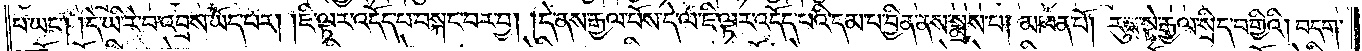པ་ཡང༌། །དེ་ཡི་རེ་བ་འབྲས་ཡོད་པར། །ཇི་ལྟར་འདོད་པ་བསྐང་བར་བྱ། །དེ་ནས་རྒྱལ་པོས་དེ་ལ་ཇི་ལྟར་འདོད་པའི་དམ་པ་བྱིན་ནས་སྨྲས་པ། མཁན་པོ། རུབ་སྟེ་རྒྱལ་སྲིད་བགྱིའི། བདག་
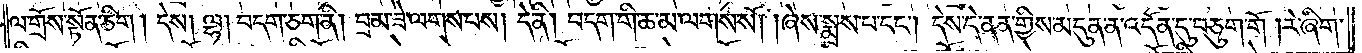ལ་གྲོས་སྟོན་ཅིག །དེས། ལྷ། བདག་ཅག་ནི། བྲམ་ཟེ་ལགས་པས། དེ་ནི། བདག་གི་ཆ་མ་ལགས་སོ། །ཞེས་སྨྲས་པ་དང༌། དེས་དེ་ནན་གྱིས་མདུན་ན་འདོན་དུ་བཅུག་གོ །རེ་ཞིག་
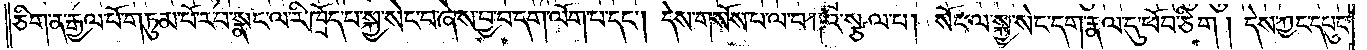ཅིག་ན་རྒྱལ་པོ་གཏུམ་པོ་རབ་སྣང་ལ་རི་ཁྲོད་པ་སྐྱ་སེང་བ་ཞེས་བྱ་བ་དག་ལོག་པ་དང༌། དེས་གསོལ་པ་ལ་བཀའ་སྩལ་པ། སོང་ལ་སྐྱ་སེང་དག་རྣལ་དུ་ཕོབ་ཅིག །དེས་ཀྱང་དཔུང་
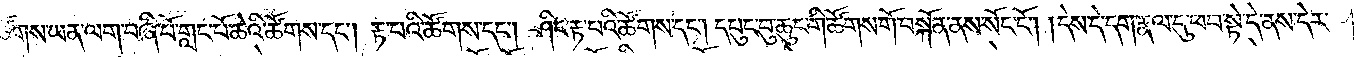གི་ཚོགས་ཡན་ལག་བཞི་པོ་གླང་པོ་ཆེའི་ཚོགས་དང༌། རྟ་པའི་ཚོགས་དང༌། ཤིང་རྟ་པའི་ཚོགས་དང༌། དཔུང་བུ་ཆུང་གི་ཚོགས་གོ་བསྐོན་ནས་སོང་ངོ༌། །དེས་དེ་དག་རྣལ་དུ་ཕམ་སྟེ་དེ་ནས་དེར་
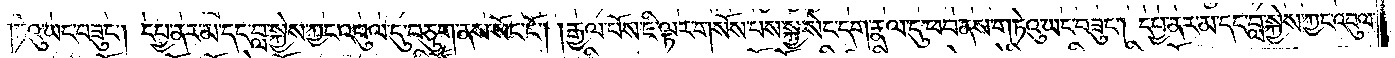གཏེའུ་ཡང་བཟུང༌། དཔྱ་ནར་མ་དང་བླ་སྐྱེས་ཀྱང་འབུལ་དུ་བཅུག་ནས་སོང་ངོ༌། །རྒྱལ་པོས་ཇི་ལྟར་གསོས་པས་སྐྱ་སེང་དག་རྣལ་དུ་ཕབ་ནས་གཏེའུ་ཡང་བཟུང༌། དཔྱ་ནར་མ་དད་བླ་སྐྱེས་ཀྱང་འབུལ་
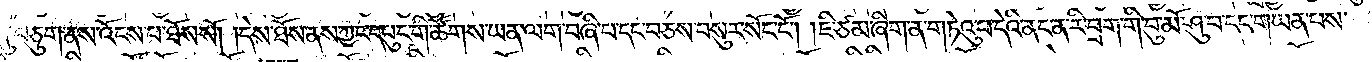དུ་བཅུག་ནས་འོངས་པ་ཐོས་སོ། །དེས་ཐོས་ནས་ཀྱང་དཔུང་གི་ཚོགས་ཡན་ལག་བཞི་པ་དང་བཅས་བསུར་སོང་ངོ༌། །ཇི་ཙམ་ཞིག་ན་གཏེའུ་པ་དེའི་ནང་ན་རི་བྲག་གི་བུ་མོ་ཤུ་བ་དང་གཡན་པས་
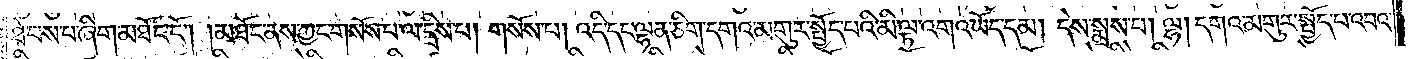ཐེབས་པ་ཞིག་མཐོང་ངོ༌། །མཐོང་ནས་ཀྱང་གསོས་པ་ལ་དྲིས་པ། གསོས་པ། འདི་དང་ལྷན་ཅིག་དགའ་མགུར་སྤྱོད་པའི་མི་ལྟ་འགའ་ཡོད་དམ། དེས་སྨྲས་པ། ལྷ། དགའ་མགུར་སྤྱོད་པ་འབའ་
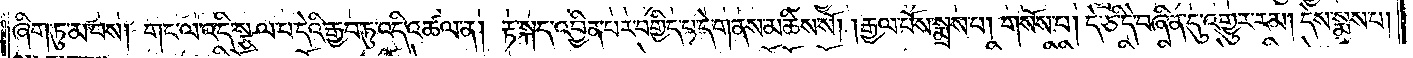ཞིག་ཏུ་མ་བས། གང་ལ་འདི་སྩལ་པ་དེའི་རྒྱབ་ཏུ་འདི་འཚལ་ན། རྟ་སྐད་འབྱིན་པར་བགྱིད་པ་དེ་གནས་མཆིས་སོ། །རྒྱལ་པོས་སྨྲས་པ། གསོས་པ། དེ་ཅི་དེ་བཞིན་དུ་འགྱུར་རམ། དེས་སྨྲས་པ།
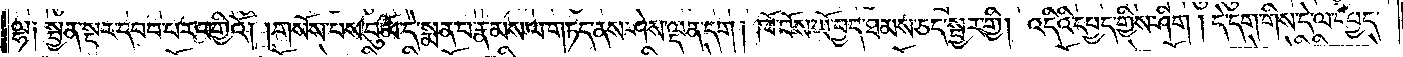ལྷ༑ སྤྱན་སྔར་དབབ་པར་བགྱིའོ། །གསོས་པས་བུ་མོ་དེ་སྨན་པ་རྣམས་ལ་གཏད་ནས་ཤེས་ལྡན་དག། ཁོ་བོས་ཡོ་བྱད་ཐམས་ཅད་སྦྱར་གྱི། འདིའི་དཔྱད་གྱིས་ཤིག །དེ་དག་གིས་དེ་ལ་དཔྱད་
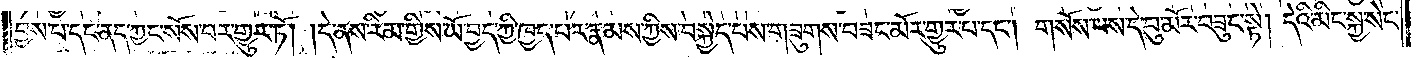བྱས་པ་དང་ནད་ཀྱང་སོས་པར་གྱུར་ཏོ། །དེ་ནས་རིམ་གྱིས་ཡོ་བྱད་ཀྱི་ཁྱད་པར་རྣམས་ཀྱིས་བསྐྱེད་པས་གཟུགས་བཟང་མོར་གྱུར་པ་དང༌། གསོས་པས་དེ་བུ་མོར་བཟུང་སྟེ། དེའི་མིང་སྐྱ་སེང་
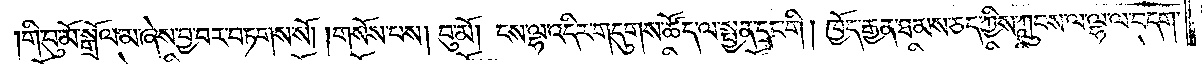གི་བུ་མོ་སྒྲོལ་མ་ཞེས་བྱ་བར་བཏགས་སོ། །གསོས་པས། བུ་མོ། དེས་ལྷ་འདིར་གདུགས་ཚོད་ལ་སྤྱན་དྲང་གི། ཁྱོད་རྒྱན་ཐམས་ཅད་ཀྱིས་ཀླུབས་ལ་ལྷ་ལ་བདག་
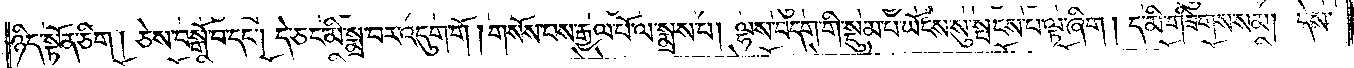ཉིད་སྟོན་ཅིག། ཅེས་བསྒོ་བ་དང༌། དེ་ཅང་མི་སྨྲ་བར་འདུག་གོ། གསོས་པས་རྒྱལ་པོ་ལ་སྨྲས་པ། ལྷས་པ་བདག་གི་སྡུམ་པ་ཡོངས་སུ་སྤངས་པ་ལྟ་ཞིག། ད་མི་གཟིགས་སམ། དེས་
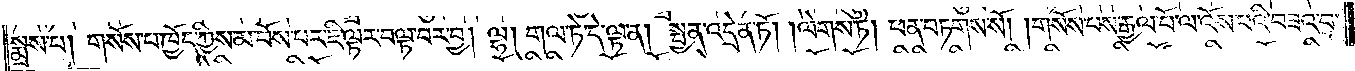སྨྲས་པ། གསོས་པ་ཁྱོད་ཀྱིས་མ་བོས་པར་ཇི་ལྟར་བལྟ་བར་བྱ། ལྷ། གལ་ཏེ་དེ་ལྟ་ན། སྤྱན་འདྲེན་ཏོ། །ལེགས་ཏེ། ཕན་བཏགས་སོ། །གསོས་པས་རྒྱལ་པོ་ལ་འོས་པའི་བཟའ་བ་
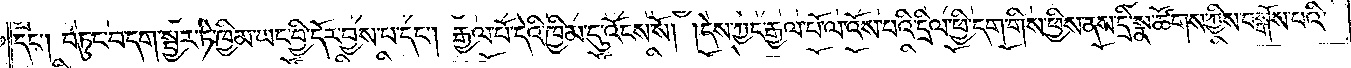དང༌། བཏུང་བ་དག་སྦྱར་ཏེ་ཁྱིམ་ཡང་བྱི་དོར་བྱས་པ་དང༌། རྒྱལ་པོ་དེའི་ཁྱིམ་དུ་འོངས་སོ། །དེས་ཀྱང་རྒྱལ་པོ་ལ་འོས་པའི་དྲིལ་ཕྱི་དག་གིས་ཕྱིས་ནས་དྲི་སྣ་ཚོགས་ཀྱིས་བསྒོས་པའི་
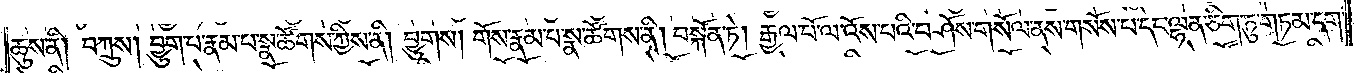ཆུས་ནི། བཀྲུས། བྱུག་པ་རྣམ་པ་སྣ་ཚོགས་ཀྱིས་ནི། བྱུགས། གོས་རྣམ་པ་སྣ་ཚོགས་ནི། བསྐོན་ཏེ། རྒྱལ་པོ་ལ་འོས་པའི་བཤོས་གསོལ་ནས་གསོས་པ་དང་ལྷན་ཅིག་ཏུ་གཏམ་དག་
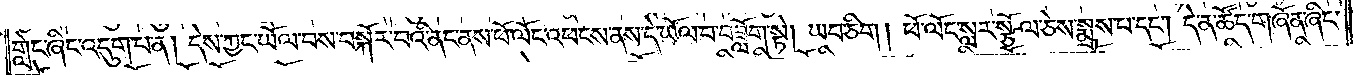གླེང་ཞིང་འདུག་པ་ན། དེས་ཀྱང་ཡོལ་བས་བསྐོར་བའི་ནང་ནས་ཕོ་ལོང་འཕངས་ནས་དེ་ཡོལ་བ་བཟློག་སྟེ། ཡབ་ཅིག། ཕོ་ལོང་སླར་སྩོལ་ཅེས་སྨྲས་པ་དང༌། དེ་ན་ཚོད་གཞོན་ཞིང་
